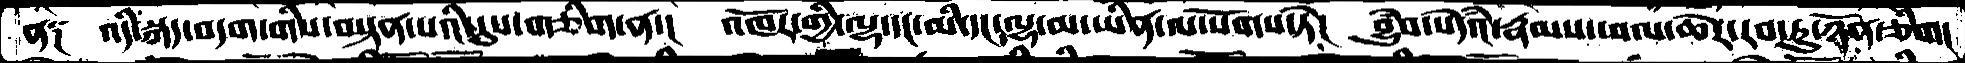ན༑  འདི་སྐད་བདག་གིས་བསྟན་པའི་དུས་གཅིག་ན་།  འཁོར་གྱི་ལྷ་དང་མི་དང་ལྷ་མ་ཡིན་ལ་སོགས་ཏེ།  བྱུཾབ་སེདཾའ་རྣམས་ཕལ་ཆེར་རབ་ཏུ་ཉོན་ཅིག།
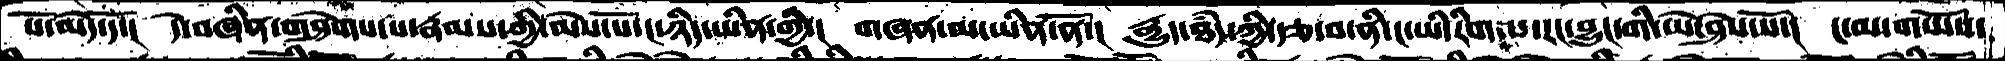པོ་མེད་དོ་།  དེ་བཞིན་གཤེགས་པ་རྣམས་ཀྱི་མེས་པོ་ང་ཉིད་ཡིན་གྱི་།  གཞན་མ་ཡིན་ནོ་།  རྒྱུད་ཐཾད་ཀྱི་རྩ་བ་ནི་ང་ཡི་རིག་པ་རང་བྱུང་གི་ཡེ་ཤེས་སོ་།  ང་མ་གཡོས་
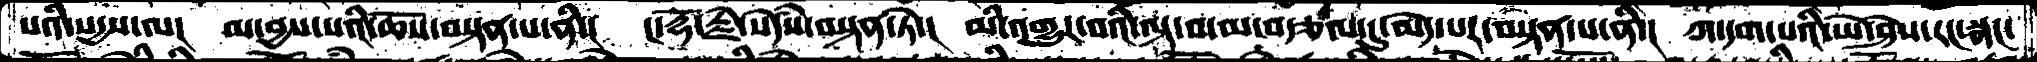པའི་སདྱས་ལ།  མ་བྱས་པའི་ཆོས་བསྟན་པ་ནི་།  །་རྡོ་རྗེ་སེདཾས་བསྟན་ཏེ་།  མི་འགྱུར་བའི་ལྟ་བ་མ་བརྩལ་དུ་མེད་པར་བསྟན་པ་ནི་།  ཀ་དག་པའི་ཡེ་ཤེས་རང་སྣང་
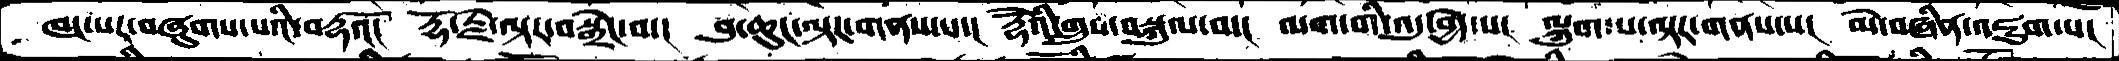ཁང་པར་བཞུགས་པའི་བརྡའོ།  རྡོ་རྗེ་ལྟར་བསྒྲེང་བ་།  བུ་ཆུང་ལྟར་གནས་པ་།  རྡོེའི་གྲུབ་བསྐུལ་བ་།  ལག་གི་འདུ་བྱེད་པ།  ལྐུག་པ་ལྟར་གནས་པ།  མེ་བཞིན་འཇུག་པ།
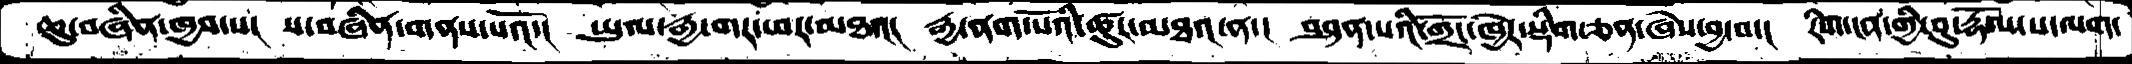ཆུ་བཞིན་ཁྱབ་པ།  ས་བཞིན་གནས་པའོ་།  ཡུལ་རྒྱ་གར་ཕར་མཐའ།  རྒྱ་ནག་པོའི་ཚུར་མཐའ་ན་།  བཤན་པའི་གྲོང་ཁྱེར་སྡིག་ཅན་ཞེས་བྱ་བ་།  རིག་ངན་གྱི་བུ་རྡོལ་པ་ལག་
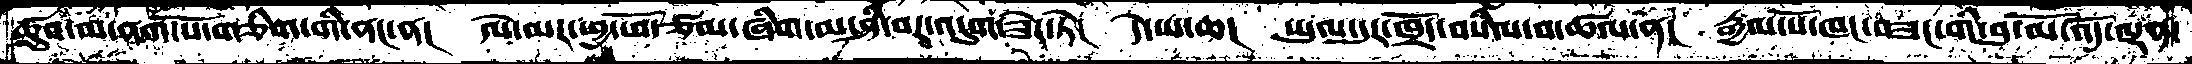ཚུབ་མ་ནག་པོ་གཅིག་གི་ནང་ན།  ལེ་མར་ཕྱ་ཕོ་ཙམ་ཞིག་མ་ཤི་བར་འདུག་ཟེར་ཏེ།  དེ་ཡ་ཆ།  ཡུལ་དུར་ཁྲོད་བསིལ་བ་ཚལ་ན།  རྒྱལ་པོ་ཁང་བཟང་གི་བུ་མོ་འོད་ལྡན་
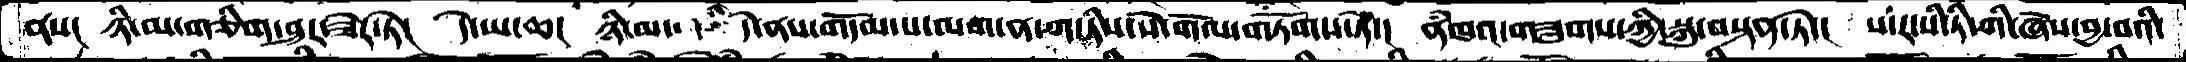ནས།   ཉི་མ་གཅིག་ཤར་ཟེར་ཏེ།  དེ་ཡ་ཆ།  ཉི་མ་   དེ་ནས་གདོམ་པ་ལག་ན་ཀ་ཏིས་སེ་གོལ་གཏོགས་ཏེ་།  ནཾཁའ་གཟུགས་ཀྱི་སྐུ་བསྟན་ཏེ་།  ས་ར་སི་ཏི་གི་ཞེས་བྱ་བའི་
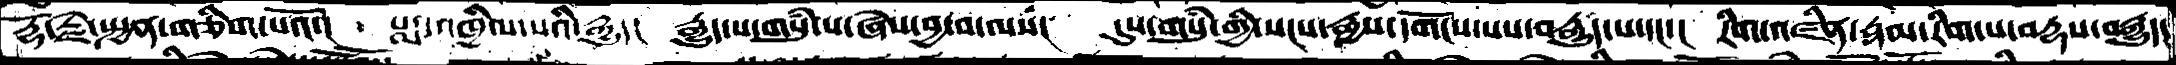རྡོ་རྗེ་སྤྱན་གཅིག་པའོ་།   པདྨ་འཁྱིལ་པའི་རྒྱུད།  རྒྱུད་པ་གསུཾ་པ་ཞེས་བྱ་བ་ལས།  དུས་གསུཾ་གྱི་སངས་རྒྱས་དགོངས་པས་བརྒྱུད་པ་དང་།  རིག་འཛིན་རྣམ་རིག་པ་བརྡས་བརྒྱུད་
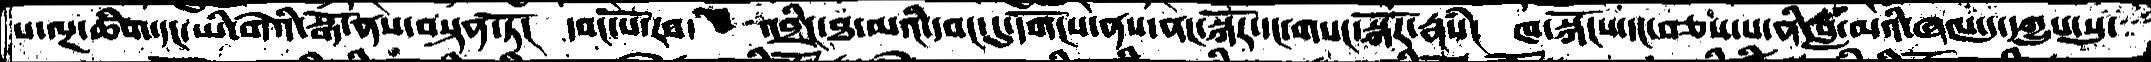ས་ལྔ་ཚིག་དང་ཡི་གེའི་སྒོ་ནས་བསྟན་ཏོ།  དབང་པོ་རབ་   འབྲིང་ཐ་མའི་དབང་དུ་དགོངས་ནས་ནང་སྐོར་དང་གསང་སྐོར་རྣཾས།  ཁ་སྐོངས་དང་བཅས་པ་ནི་བླ་མའི་ཞལ་དུ་དགྱུས་སུ་
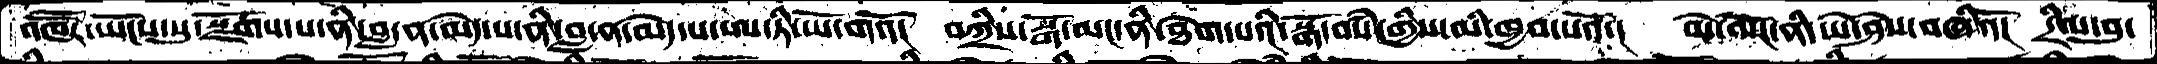འཁཽར་ཡོངས་སུ་སྫོགས་པ་ནི་བླ་ན་མེད་པ་ནི་བླ་ནམེད་པ་ཨ་ཏི་ཡོ་གའོ།  བཀྲིས་སྒོ་མང་ནི་ཐེག་པའི་སྒོ་བསཾ་གྱིས་མི་ཁྱབ་པའོ་།  མེ་ལོང་ནི་ཡེ་ཤེས་བཞིའོ།  དྲིལ་བུ་
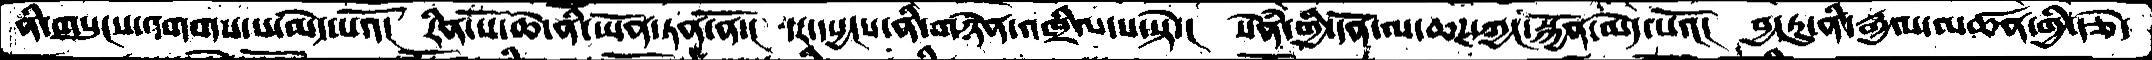ནི་གསུངས་འགགས་པ་མེད་པའོ་།  རིན་པོ་ཆེ་ནི་ཡོན་ཏན་ནོ་།  དར་དཔྱངས་ནི་གཉེན་འཁྲིལ་པ་སྟེ་།  སེཾན་གྱི་དོན་ལ་ཆཌ་ཀྱང་སྐྱོན་མེད་པའོ་།  བྱ་ཏུ་ནི་རྒྱལ་མཚན་གྱི་རྩེ་
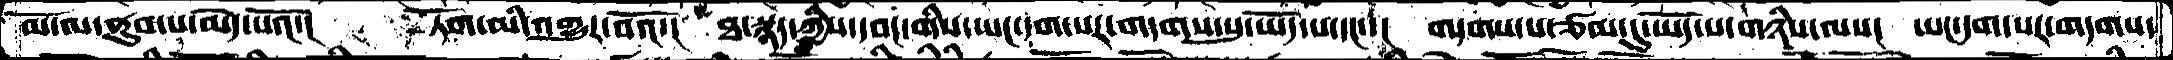མོ་ལ་ནུབ་པ་མེད་པའོ་།  ཏོག་མི་འགྱུར་བའོ་།  ཐ་སྙད་ཀྱིས་དབང་གིས་ཡང་དག་པར་གདགས་སུ་ཡོད་པ་དང་།  གདགས་པ་ཙམ་དུ་ཡོད་པ་གཉིས་ལས་།  ཡང་དག་པར་གདགས་
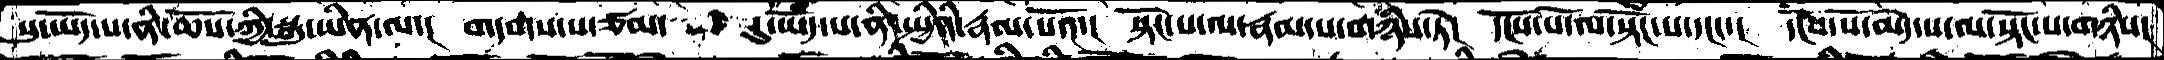སུ་ཡོད་པ་ནི་ཆོས་ཀྱི་སྐུ་ཡིན་ལ་།  གདགས་པ་ཙམ་    དུ་ཡོད་པ་ནི་སྤྱིའི་རྣམ་པའོ་།  སྟོང་པ་ལ་རྣམ་པ་གཉིས་ཏེ།  དངོས་པོ་ལ་སྟོང་པ་དང་་།  དངོས་པོ་མེད་པ་ལ་སྟོང་པ་གཉིས།
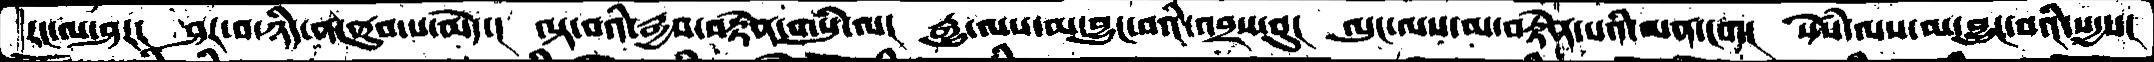རང་ལ་ཤར།  ཤར་བ་ཉིད་ན་ནུབ་པ་མེད་།  ལྟ་བའི་རྒྱབ་བརྟེན་གསུཾ་ལ།  རྒྱུ་ལས་མ་བྱུང་བའི་འབྲས་བུ།  ལུང་ལས་མ་བརྟེན་པའི་མན་ངག།  སེཾས་ལས་མ་བྱུང་བའི་སདྱས་
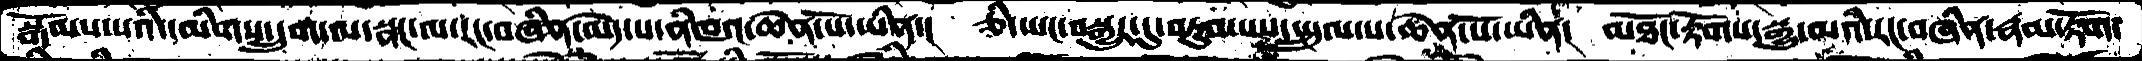སྒོམས་པའི་དམིགས་དྲུག་ལ་སྣང་ལ་རང་བཞིན་མེད་པ་ནཾཁའ་ཆེན་པོ་ཡིན་། ཅི་ཡང་བསྒྱུར་དུ་བཏུབ་པས་སྤྲུལ་པ་ཆེན་པོ་ཡིན།  མཐོང་རྟོགས་སྒྱུ་མའི་རང་བཞིན་རྣམ་རྟོག་
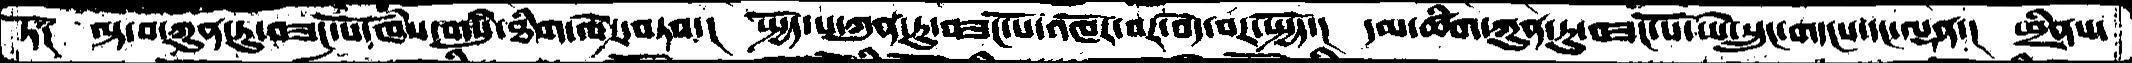ཏོ༑  ལྟ་བ་ཀུན་ཏུ་བཟང་པོ་ཁཾས་གསུཾ་ཐིག་ལེར་བཏབ་།  སྤྱོད་པ་ཀུན་ཏུ་བཟང་པོ་འཁོར་བར་བདེ་བར་སྤྱོད་།  དམ་ཚིག་ཀུན་ཏུ་བཟང་པོ་ཡེ་སྲུང་གདངས་དང་ལྡན་།  ཕྲིནས་
